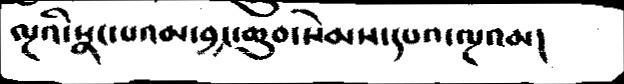ལྔའི་སྣང་པའམ་བྱང་ཆུབ་སེམས་དཔའ་ལྔའམ།
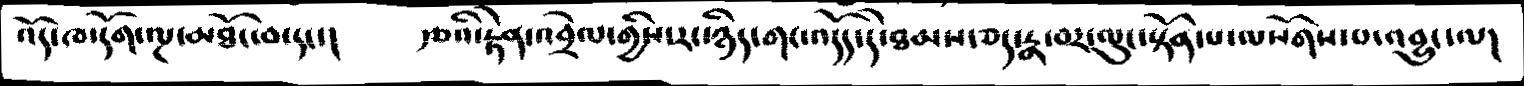འོད་ཁ་དོག་ལྔ་མཐོང་བ་དང་།  རྩའི་རྟེན་འབྲེལ་གྱིས་རང་ཉིད་གང་འདོད་དེ་ཐམས་ཅད་རྣ་བར་ལུང་སྟོན་པ་ལསོགས་པ་འབྱུང་ལ།
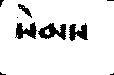སེམས
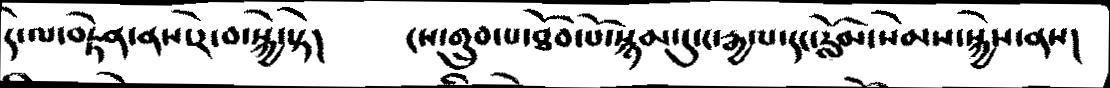དེ་ལ་བརྟེན་ནས་རེ་བ་སྐྱེ་སྟེ།  ངས་གྲུབ་པ་ཐོབ་པོ་སྙམ་དུ་ང་རྒྱལ་དང་རློམ་སེམས་སྐྱེས་ནས།
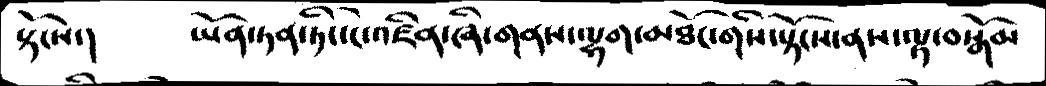སྟོངས་།   ཡོན་ཏན་ཏིང་ངེ་འཛིན་ཞི་གནས་ལྷག་མཐོང་གིས་སྟོངས་ནས་ལྟ་བསྒོམ
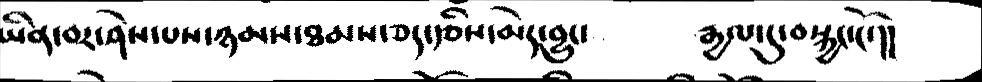ཡིན་བར་ཤེས་པས་ཉམས་ཐམས་ཅད་རྩིས་མེད་བྱུང་  རྒྱལ་དུ་བསྐྱང་ངོ་།།
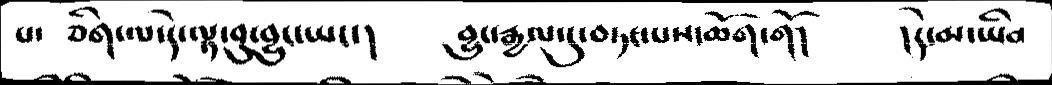པ་  ཅིག་ལ་དེ་ལྟ་བུ་བྱུང་ཡང་།  བྱུང་རྒྱལ་དུ་བཏང་པས་ཆོག་གོ།   །དེ་མ་ཡིན
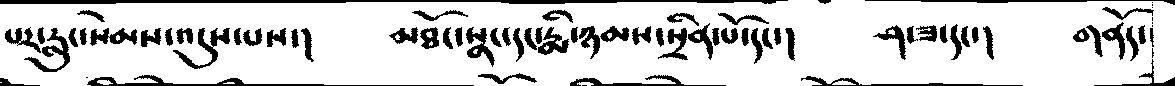པར་རླུང་སེམས་འདུས་པས་།  མཐོང་སྣང་དང་རྨི་ཉམས་སྲིན་པོ་དང་།  ཤ་ཟ་དང་།  གནོད་
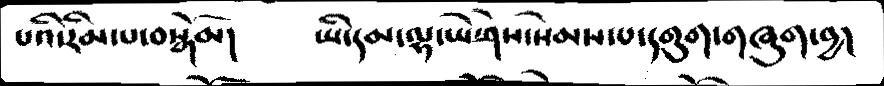པའི་རིམ་པ་བསྒོམ།  ཡི་དམ་ལྷ་ཡེ་ཤེས་སེམས་པ་དགུག་གཞུག་བྱ།
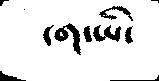ངག་ཡི་
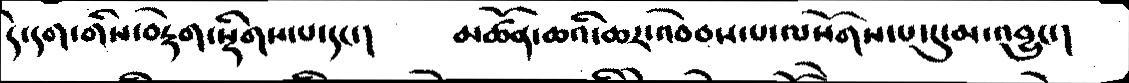དེ་དག་གིས་བརྡེག་སྡིགས་པ་དང་།  མཚོན་ཆའི་ཆར་འབེབས་པ་ལསོགས་པ་དུ་མ་འབྱུང་།
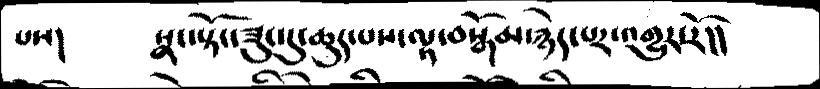པས།  སྣང་སྟོང་ཟུང་དུ་ཆུད་པས་ལྟ་བསྒོམ་རྙེད་པར་འགྱུར་རོ།།
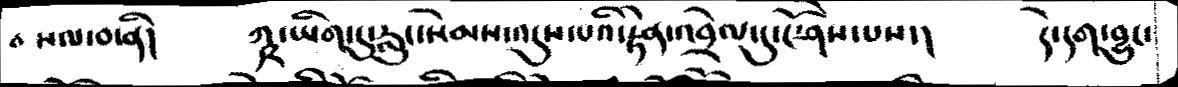བསལ་བ་ནི།  ཀྵ་ཡིག་དུ་རླུང་སེམས་འདུས་པའི་རྟེན་འབྲེལ་དུ་ངོ་ཤེས་པས་།  དེ་དག་བྱུང་
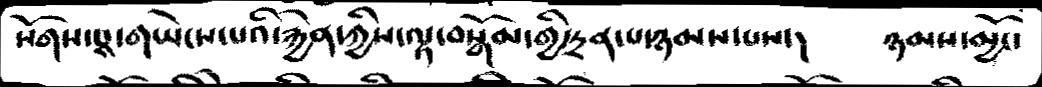སོགས་པས་གཡེངས་པའི་རྐྱེན་ཀྱིས་ལྟ་བསྒོམ་གྱི་དྲན་པ་ཉམས་པས་།  ཉམས་མྱོང་
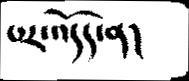པར་འདོད་ན།
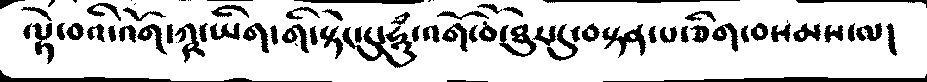ལྟེ་བའི་འོག་ཀྵ་ཡིག་གི་སྟེང་དུ་ཧཱུྃ་འགོ་བོ་ཐུར་དུ་བསྟན་པ་ཅིག་བསམས་ལ།
